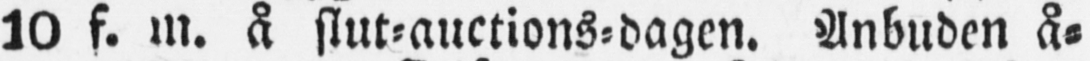10 f. m. å slut-auctions-dagen. Anbuden å-
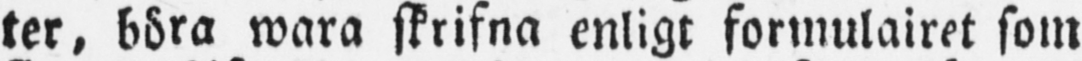ter, böra wara skrifna enligt formulairet som
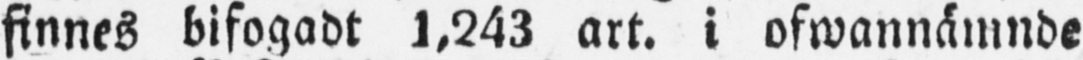finnes bifogadt 1,243 art. i ofwannämnde
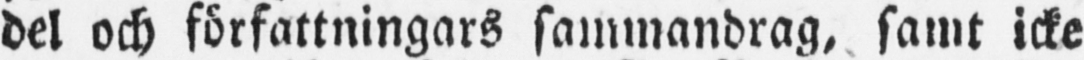del och författningars sammandrag, samt icke
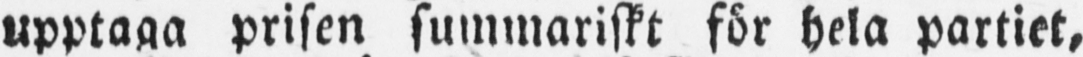upptaga prisen summariskt för hela partiet,
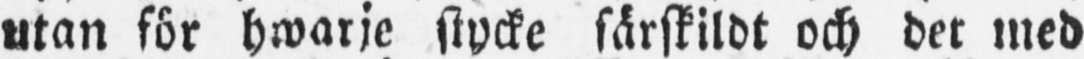utan för hwarje stycke särskildt och det med
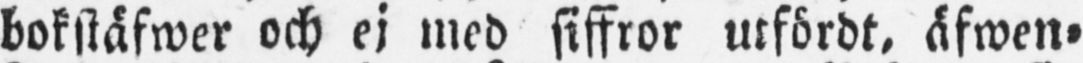bokstäfwer och ej med siffror utfördt, äfwen-
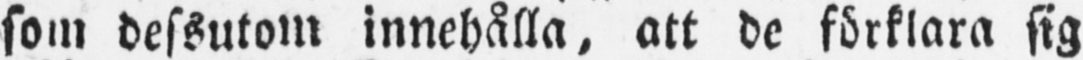som dessutom innehålla, att de förklara sig
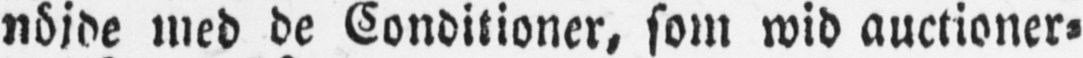nöjde med de Conditioner, som wid auctioner-
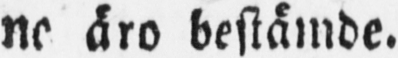ne äro bestämde.
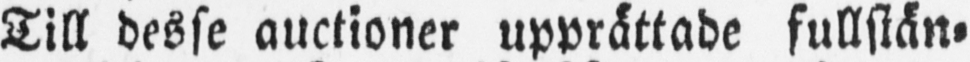Till desse auctioner upprättade fullstän-
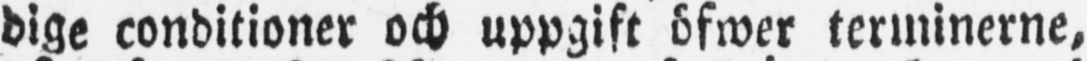dige conditioner och uppgift öfwer terminerne,
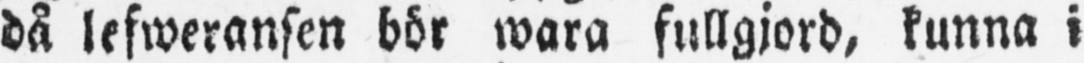då lefweransen bör wara fullgjord, kunna i
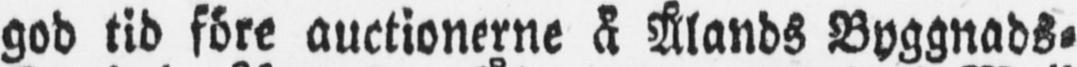god tid före auctionerne å Ålands Byggnads-
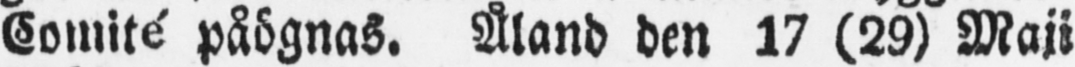Comité påögnas. Åland den 17 (29) Maji
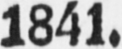1841.
